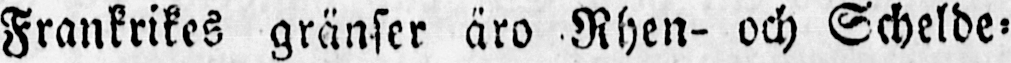Frankrikes gränser äro Rhen- och Schelde-
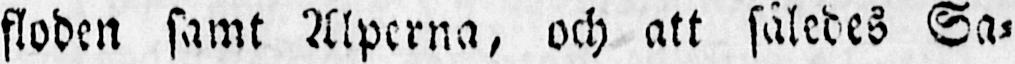floden samt Alperna, och att således Sa-
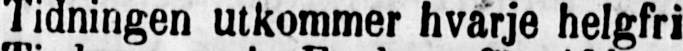Tidningen utkommer hvarje helgfri
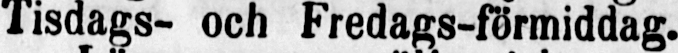Tisdags- och Fredags-förmiddag.
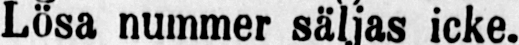Lösa nummer säljas icke.
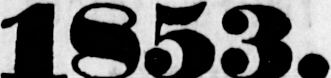1853.
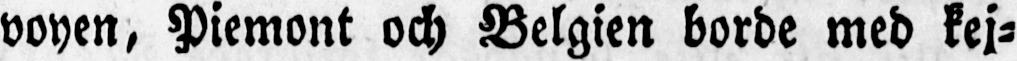voyen, Piemont och Belgien borde med kej-
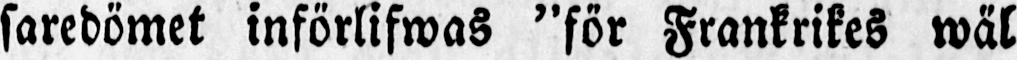saredömet införlifwas "för Frankrikes wäl
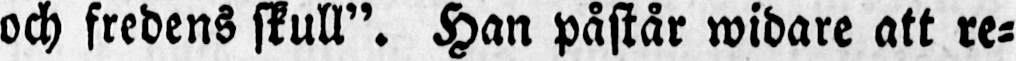och fredens skull". Han påstår widare att re-
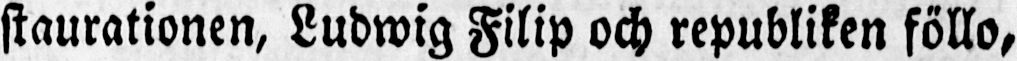staurationen, Ludwig Filip och republiken föllo,
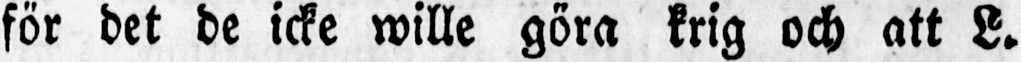för det de icke wille göra krig och att L.
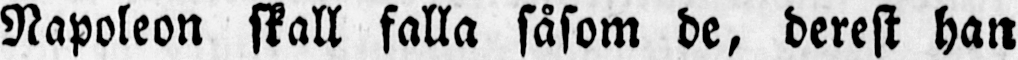Napoleon skall falla såsom de, derest han
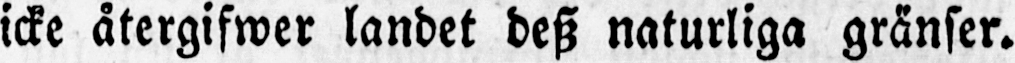icke återgifwer landet desz naturliga gränser.
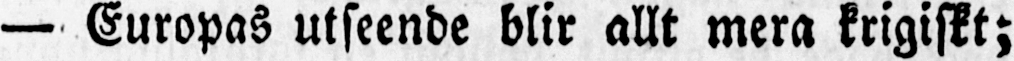— Europas utseende blir allt mera krigiskt;
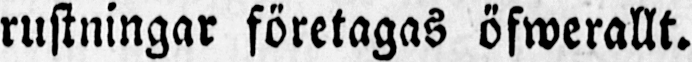rustningar företagas öfwerallt.
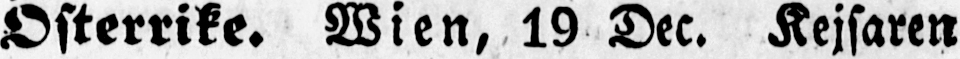Österrike. Wien, 19 Dec. Kejsaren
